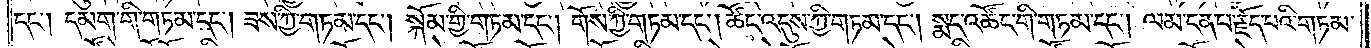དང༌། དམག་གི་གཏམ་དང༌། ཟས་ཀྱི་གཏམ་དང༌། སྐོམ་གྱི་གཏམ་དང༌། གོས་ཀྱི་གཏམ་དང༌། ཚོང་འདུས་ཀྱི་གཏམ་དང༌། སྨད་འཚོང་གི་གཏམ་དང༌། ལམ་ངན་པ་རྗོད་པའི་གཏམ་
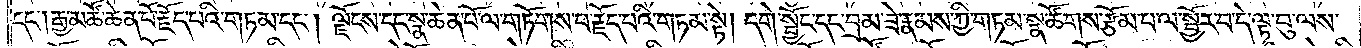དང༌། རྒྱ་མཚོ་ཆེན་པོ་རྗོད་པའི་གཏམ་དང༌། ལྗོངས་དང་སྣ་ཆེན་པོ་ལ་གཏོགས་པ་རྗོད་པའི་གཏམ་སྟེ། དགེ་སྦྱོང་དང་བྲམ་ཟེ་རྣམས་ཀྱི་གཏམ་སྣ་ཚོགས་རྩོམ་པ་ལ་སྦྱོར་བ་དེ་ལྟ་བུ་ལས་
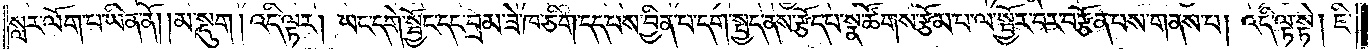སླར་ལོག་པ་ཡིན་ནོ། །མ་སྡུག །འདི་ལྟར། ཡང་དགེ་སྦྱོང་དང་བྲམ་ཟེ་ཁ་ཅིག་དད་པས་བྱིན་པ་དག་སྤྱད་ནས་རྩོད་པ་སྣ་ཚོགས་རྩོམ་པ་ལ་སྦྱོར་བར་བརྩོན་བས་གནས་པ། འདི་ལྟ་སྟེ། ཇི་
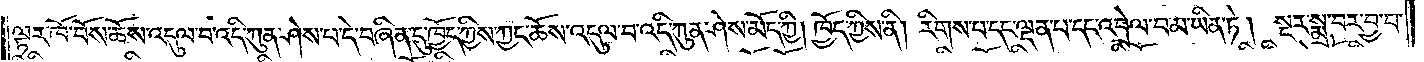ལྟར་ཁོ་བོས་ཆོས་འདུལ་བ་འདི་ཀུན་ཤེས་པ་དེ་བཞིན་དུ་ཁྱོད་ཀྱིས་ཀྱང་ཆོས་འདུལ་བ་འདི་ཀུན་ཤེས་མོད་ཀྱི། ཁྱོད་ཀྱིས་ནི། རིགས་པ་དང་ལྡན་པ་དང་འབྲེལ་བ་མ་ཡིན་ཏེ། སྔར་སྨྲ་བར་བྱ་བ་
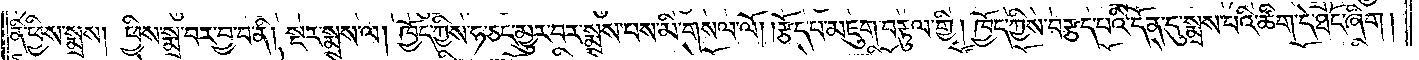ནི་ཕྱིས་སྨྲས། ཕྱིས་སྨྲ་བར་བྱ་བ་ནི། སྔར་སྨྲས་ལ། ཁྱོད་ཀྱིས་ཧ་ཅང་མྱུར་བར་སྨྲས་པས་མི་གསལ་ལོ། །རྩོད་པ་མཇུག་བརྟུལ་གྱི། ཁྱོད་ཀྱིས་བརྩད་པའི་དོན་དུ་སྨྲས་པའི་ཚིག་དེ་ཐོང་ཞིག།
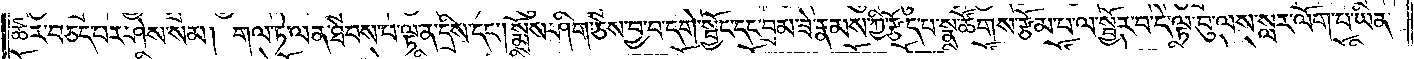ཚར་བཅད་པར་ཤེས་སམ། གལ་ཏེ་ལན་ཐེབས་པ་ལྟ་ན་དྲིས་དང༌། སྨྲོས་ཤིག་ཅེས་བྱ་བ་དགེ་སྦྱོང་དང་བྲམ་ཟེ་རྣམས་ཀྱི་རྩོད་པ་སྣ་ཚོགས་རྩོམ་པ་ལ་སྦྱོར་བ་དེ་ལྟ་བུ་ལས་སླར་ལོག་པ་ཡིན་
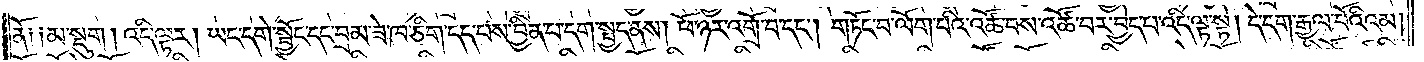ནོ༑ ༑མ་སྡུག །འདི་ལྟར། ཡང་དགེ་སྦྱོང་དང་བྲམ་ཟེ་ཁ་ཅིག་དད་པས་བྱིན་པ་དག་སྤྱད་ནས། ཕོ་ཉར་འགྲོ་བ་དང༌། གཏོང་བ་ལོག་པའི་འཚོ་བས་འཚོ་བར་བྱེད་པ་འདི་ལྟ་སྟེ། དེ་དག་རྒྱལ་པོའི་འམ།
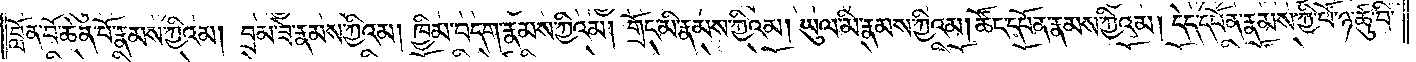བློན་པོ་ཆེན་པོ་རྣམས་ཀྱིའམ། བྲམ་ཟེ་རྣམས་ཀྱིའམ། ཁྱིམ་བདག་རྣམས་ཀྱིའམ། གྲོང་མི་རྣམས་ཀྱིའམ། ཡུལ་མི་རྣམས་ཀྱིའམ། ཚོང་དཔོན་རྣམས་ཀྱིའམ། དེད་དཔོན་རྣམས་ཀྱི་ཕོ་ཉ་ཚུ་བི་
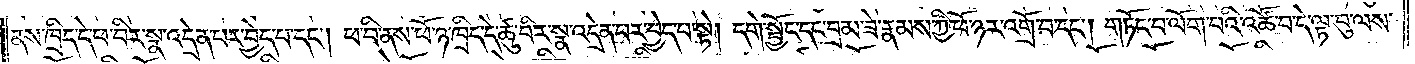ནས་ཁྲིད་དེ་ཕ་བིར་སྣ་འདྲེན་པར་བྱེད་པ་དང༌། ཕ་བི་ནས་ཕོ་ཉ་ཁྲིད་དེ་ཚུ་བིར་སྣ་འདྲེན་པར་བྱེད་པ་སྟེ། དགེ་སྦྱོང་དང་བྲམ་ཟེ་རྣམས་ཀྱི་ཕོ་ཉར་འགྲོ་བ་དང༌། གཏོང་བ་ལོག་པའི་འཚོ་བ་དེ་ལྟ་བུ་ལས་
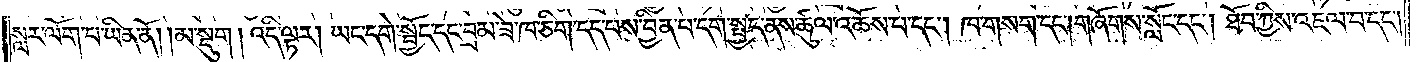སླར་ལོག་པ་ཡིན་ནོ། །མ་སྡུག། འདི་ལྟར། ཡང་དགེ་སྦྱོང་དང་བྲམ་ཟེ་ཁ་ཅིག་དད་བས་བྱིན་པ་དག་སྤྱད་ནས་ཚུལ་འཆོས་པ་དང༌། ཁ་གསག་དང༌། གཞོགས་སློང་དང༌། ཐོབ་ཀྱིས་འཇལ་བ་དང༌།
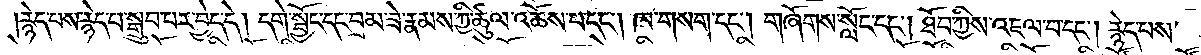རྙེད་པས་རྙེད་པ་སྒྲུབ་པ་པར་བྱེད་དེ། དགེ་སྦྱོང་དང་བྲམ་ཟེ་རྣམས་ཀྱི་ཚུལ་འཆོས་པ་དང༌། ཁ་གསག་དང༌། གཞོགས་སློང་དང༌། ཐོབ་ཀྱིས་འཇལ་བ་དང༌། རྙེད་པས་
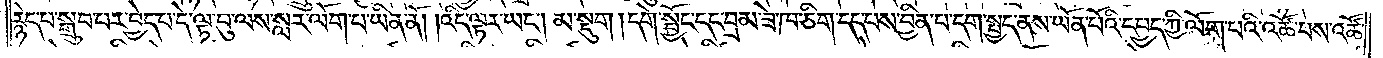རྙེད་པ་སྒྲུབ་པར་བྱེད་པ་དེ་ལྟ་བུ་ལས་སླར་ལོག་པ་ཡིན་ནོ། །འདི་ལྟར་ཡང༌། མ་སྡུག །དགེ་སྦྱོང་དང་བྲམ་ཟེ་ཁ་ཅིག་དད་པས་བྱིན་པ་དག་སྤྱད་ནས་ཡོན་པོའི་དཔྱད་ཀྱི་ལོག་པའི་འཚོ་བས་འཚོ་
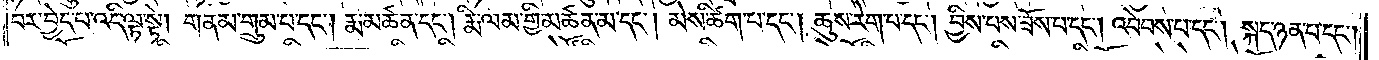བར་བྱེད་པ་འདི་ལྟ་སྟེ། གནམ་གྲུམ་པ་དང༌། རྨ་མཚན་དང༌། རྨི་ལམ་གྱི་མཚན་མ་དང༌། མེས་ཚིག་པ་དང༌། ཆུས་རེག་པ་དང༌། བྱིས་པས་ཟོས་པ་དང༌། འབེབས་པ་དང༌། སྐད་ཉན་པ་དང༌།
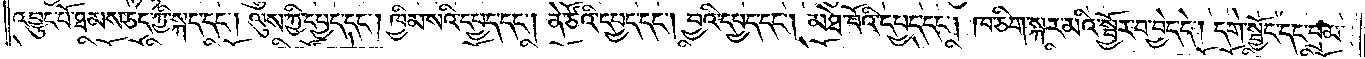འབྱུང་པོ་ཐམས་ཅད་ཀྱི་སྐད་དང༌། ལུས་ཀྱི་དཔྱད་དང༌། ཁྱིམ་སའི་དཔྱད་དང༌། ནེ་ཙོའི་དཔྱད་དང༌། བྱའི་དཔྱད་དང༌། མཐེ་བོའི་དཔྱད་དང༌། ཁ་ཅིག་སྐར་མའི་སྦྱོར་བ་བྱེད་དེ། དགེ་སྦྱོང་དང་བྲམ་
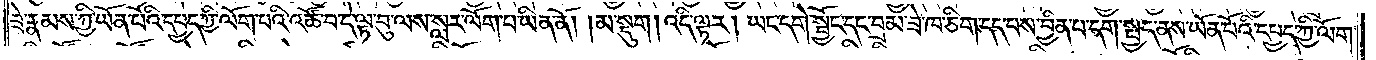ཟེ་རྣམས་ཀྱི་ཡོན་པོའི་དཔྱད་ཀྱི་ལོག་པའི་འཚོ་བ་དེ་ལྟ་བུ་ལས་སླར་ལོག་པ་ཡིན་ནོ། །མ་སྡུག །འདི་ལྟར། ཡང་དགེ་སྦྱོང་དང་བྲམ་ཟེ་ཁ་ཅིག་དད་པས་བྱིན་པ་དག་སྤྱད་ནས་ཡོན་པོའི་དཔྱད་ཀྱི་ལོག་
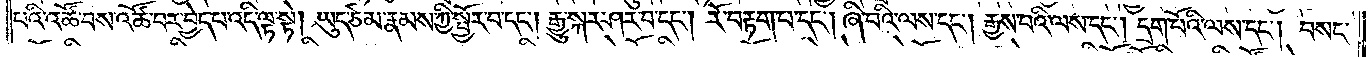པའི་འཚོ་བས་འཚོ་བར་བྱེད་པ་འདི་ལྟ་སྟེ། ཡུད་ཙམ་རྣམས་ཀྱི་སྤྱོར་བ་དང༌། རྒྱུ་སྐར་ཤར་བ་དང༌། རོ་བརྟག་པ་དང༌། ཞི་བའི་ལས་དང༌། རྒྱས་པའི་ལས་དང༌། དྲག་པོའི་ལས་དང༌། བསང་
